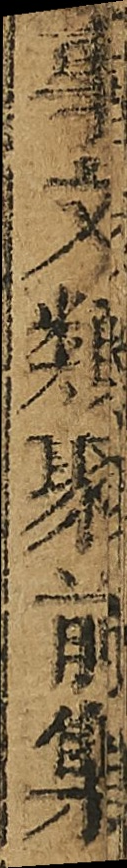事文類聚前集
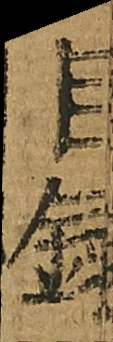目錄
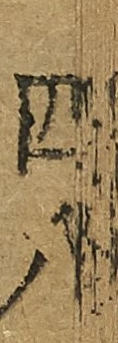四八
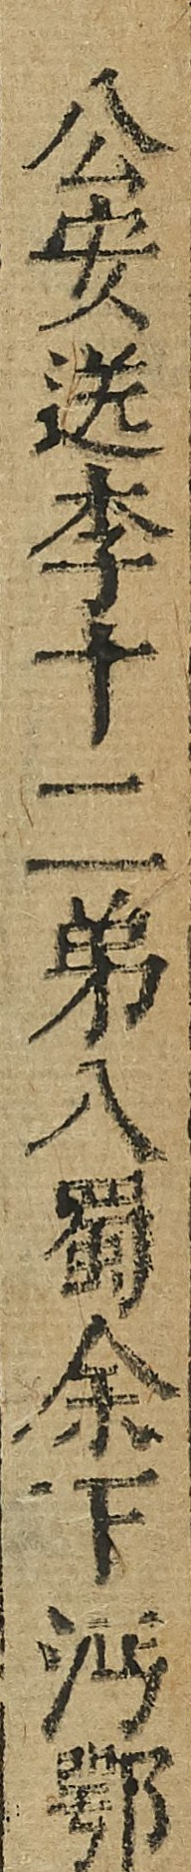公安送李十二弟入蜀余下鸿鄂
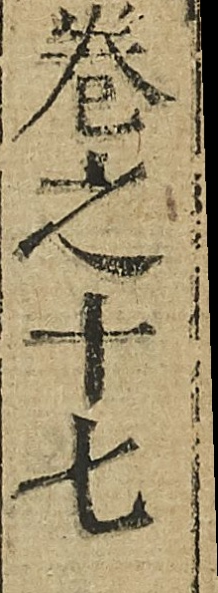卷之十七
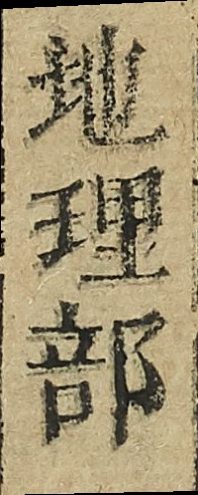地理部
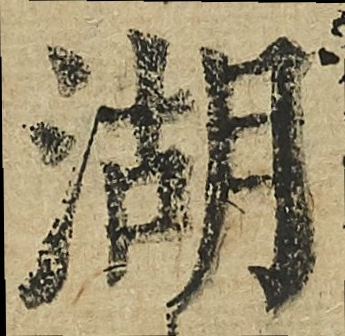湖
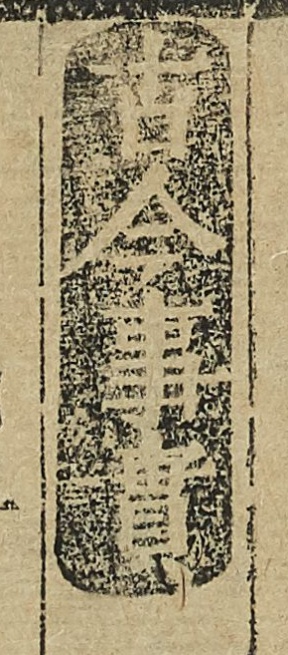古今事實
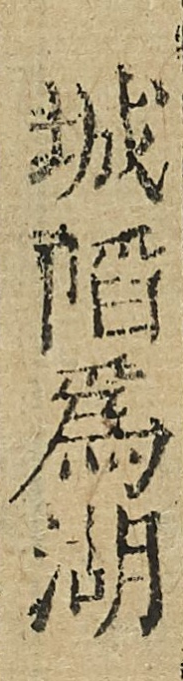城陷爲湖
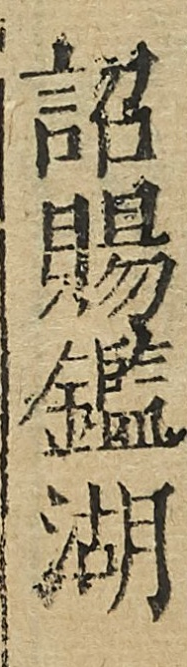詔賜鑑湖
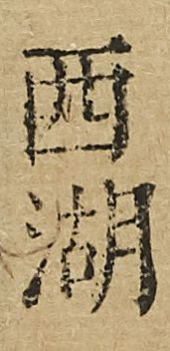西湖
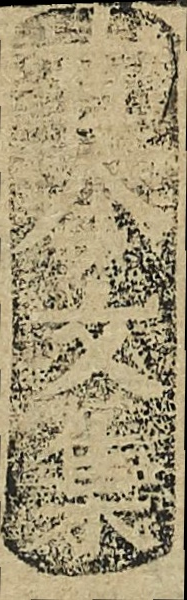古今文集
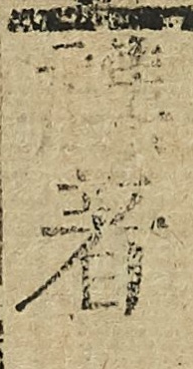雜著
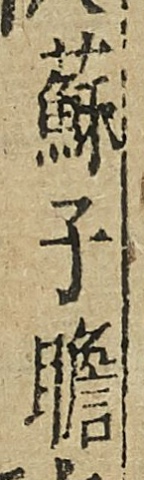蘇子瞻
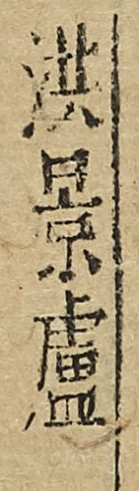洪景盧
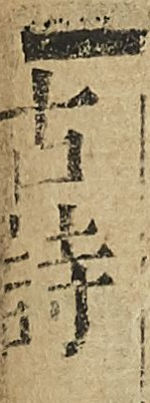古詩
